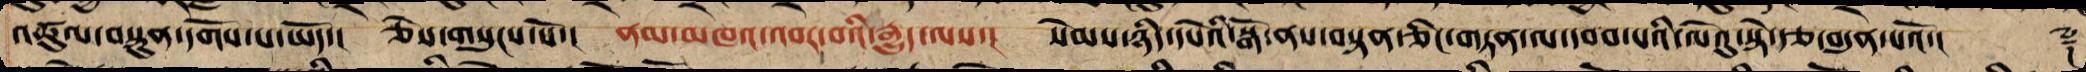ཚུལ་བསྟུན་དགོས་པ་ཡོད་། ཅེས་གསུངས་སོ་། ནམ་མཁའ་འབར་བའི་རྒྱུད་ལས་། སེམས་ཉིད་དཔེའི་སྒོ་ནས་བསྟན་ཅིང་གཏན་ལ་དབབ་པའི་ལེའུ་སྟེ་རྩ་བདུན་པའོ་།། ༈
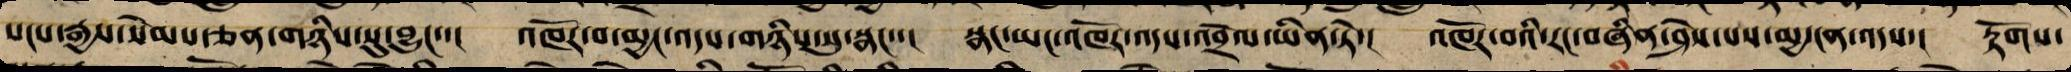སངས་རྒྱས་སེམས་ཅན་གཉིས་སུ་བྱུང་་། འཁོར་བ་མྱང་འདས་གཉིས་སུ་སྣང་་། སྣང་ཡང་འཁོར་འདས་འབྲེལ་ཡིན་ཏེ་། འཁོར་བའི་རང་བཞིན་ཤེས་པ་མྱ་ངན་འདས་། རྟོགས་
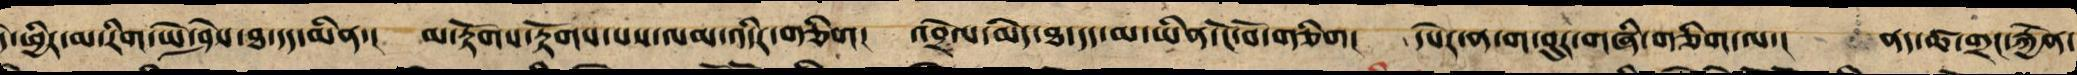དེ་ཕྱིར་མ་རིག་ཡེ་ཤེས་ཐ་དད་མིན་། མ་རྟོགས་རྟོགས་པས་ལམ་འདིར་གཅིག། འབྲེལ་མེད་ཐ་དད་མ་ཡིན་ངོ་བོ་གཅིག། དཔེར་ན་ག་བུར་གཞི་གཅིག་ལ་། ནད་ཚ་གྲང་རྐྱེན་
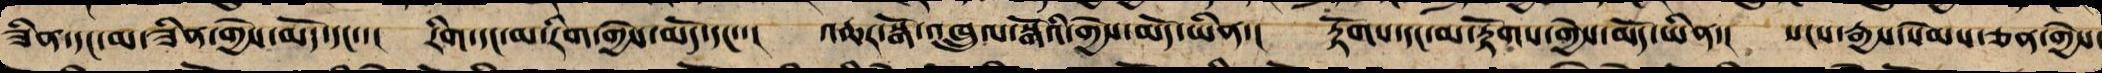ཟིན་དང་མ་ཟིན་གྱེས་མདོ་དང་་། རིག་དང་མ་རིག་གྱེས་མདོ་དང་་། འཆར་སྒོ་འཁྲུལ་སྒོའི་གྱེས་མདོ་ཡིན་། རྟོགས་དང་མ་རྟོགས་གྱེས་མདོ་ཡིན་། སངས་རྒྱས་སེམས་ཅན་གྱེས་
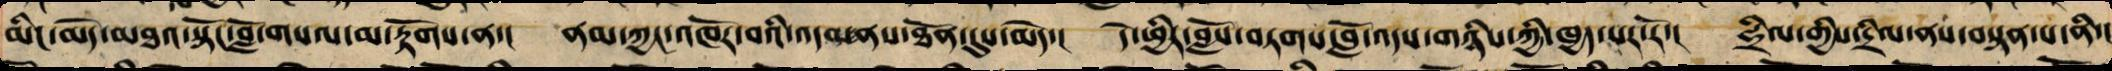མིང་མེད་མཐའ་སྟོང་བློ་གསལ་མ་རྟོགས་ན་། ནམ་ཀྱང་འཁོར་བའི་འདམ་ནས་ཐོན་དུས་མེད་། དེ་ཕྱིར་བློས་བཏགས་བློ་འདས་གཉིས་ཀྱི་ཁྱད་པར་རོ་། ཧྲིལ་གྱིས་དྲིལ་ནས་བསྟན་པ་ནི་།
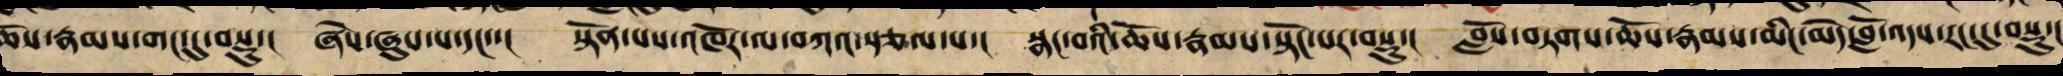ཆོས་རྣམས་གང་དུ་བསྡུ་། ཞེས་ཞུས་པ་དང་་། སྟོན་པས་འཁོར་ལ་བཀའ་སྩལ་པ་། སྣང་བའི་ཆོས་རྣམས་སྟོང་པར་བསྡུ་། བློས་བཏགས་ཆོས་རྣམས་མིང་མེད་བློ་འདས་ངང་དུ་བསྡུ་།
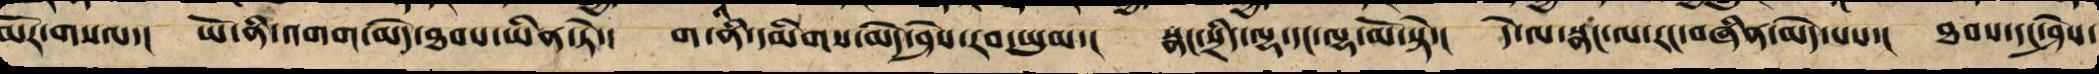མོར་གསལ་། ཡོ་ནི་འགག་མེད་ཐབས་ཡིན་ཏེ་། ག་ནི་དམིགས་མེད་ཤེས་རབ་ཡུམ་། སྣང་སྲིད་ལྷ་དང་ལྷ་མོ་སྟེ་། དེ་སྣང་ལ་རང་བཞིན་མེད་པས་། ཐབས་དང་ཤེས་
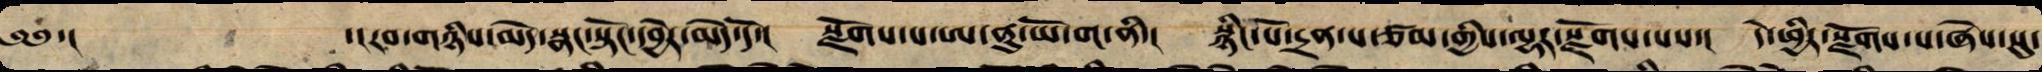༄༅་། ་།རབ་གཉིས་མེད་སྣང་སྟོང་དབྱེར་མེད་དོ་། སྫོགས་པ་ཨ་ནུ་ཡོ་ག་ནི་། སྙིང་པོ་དྲན་པ་ཙམ་གྱིས་ལྷར་སྫོགས་པས་། དེ་ཕྱིར་སྫོགས་པ་ཞེས་སུ་
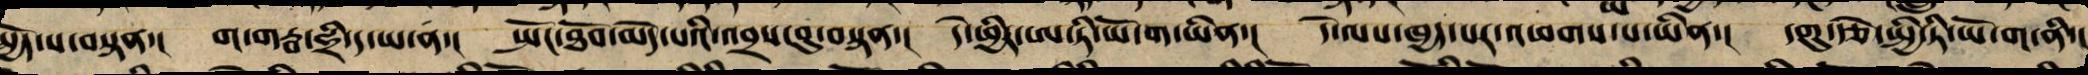སྤྱོད་པ་བསྟན་། ག་གརྦ་ཧྲྀ་ད་ཡ་ན་། སྤོང་ཐོབ་མེད་པའི་འབྲས་བུ་བསྟན་། དེ་ཕྱིར་ཨ་ཏི་ཡོ་ག་ཡིན་། དེ་ལས་ཁྱད་པར་འཕགས་པ་ནི་། དགུ་རྩེ་སྤྱི་ཏི་ཡོ་ག་ནི་།
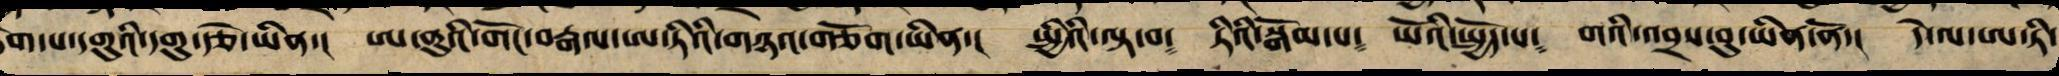ཐེག་པ་དགུ་ཡི་དགུ་རྩེ་ཡིན་། ཨ་ནུའི་གོང་བརྒལ་ཨ་ཏིའི་གཉའ་གཅོག་ཡིན་། སྤྱི་ཡིས་ལྟ་བ༴ ཏིའི་བསྒོམ་པ༴ ཡོའི་སྤྱོད་པ༴ གའི་འབྲས་བུ་ཡིན་ནོ་། དེ་ལ་ཨ་ཏི་
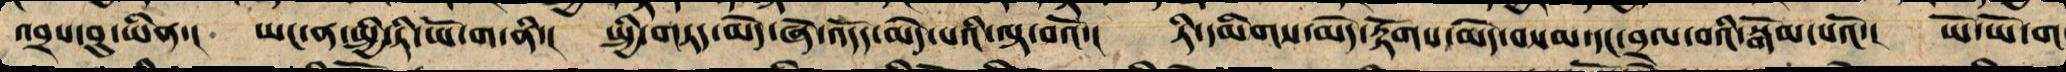འབྲས་བུ་ཡིན་། ཡང་ན་སྤྱི་ཏི་ཡོ་ག་ནི་། སྤྱི་གཏད་མེད་ཞེ་འདོད་མེད་པའི་ལྟ་བའོ་། ཏི་དམིགས་མེད་རྟོག་མེད་བསམ་དང་བྲལ་བའི་སྒོམ་པའོ་། ཡོ་ཡོ་ག་
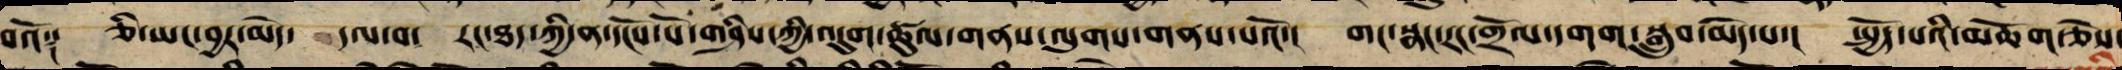བའོ༑ ཅི་ཡང་བྱར་མེད་དལ་བ་ རང་ཐད་གྱི་ན་དངོས་པོ་གཤིས་ཀྱི་འདུག་ཚུལ་གནས་ལུགས་གནས་པའོ་། གང་སྣང་རང་གྲོལ་དགག་སྒྲུབ་མེད་པ་སྤྱོད་པའི་མཆོག་ཅེས་
